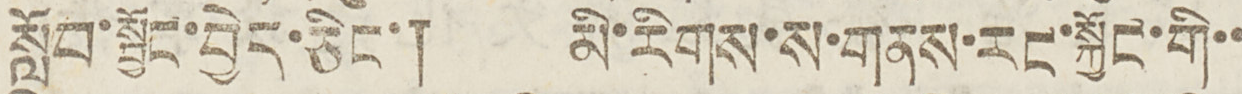སློབ་སྦྱོང་བྱེད་ཅིང་། མི་རིགས་ས་གནས་རང་སྐྱོང་གི་་
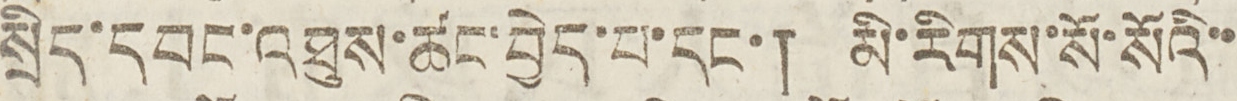སྲིད་དབང་འཐུས་ཚང་བྱེད་པ་དང་། མི་རིགས་སོ་སོའི་་
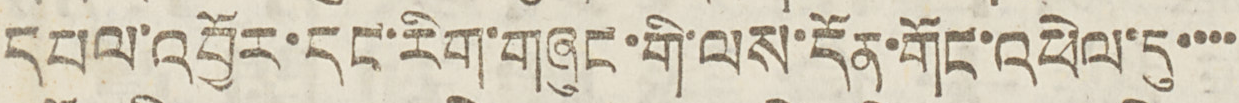དཔལ་བྱོར་དང་རིག་གཞུང་གི་ལས་དོན་གོང་འཕེལ་དུ་་་་
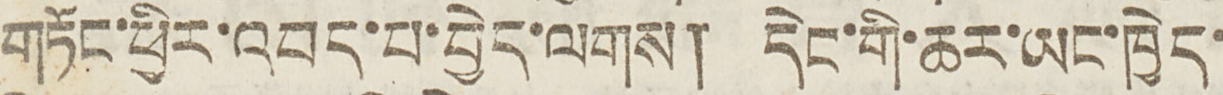གཏོང་ཕྱིར་འབད་པ་བྱེད་ལགས། དེང་གི་ཆར་ཡང་ཁྱེད་
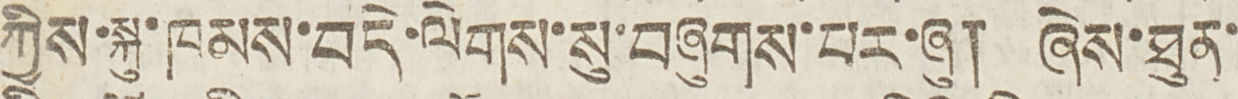ཀྱིས་སྐུ་ཁམས་བདེ་ལེགས་སུ་བཞུགས་པར་ཞུ། ཞེས་ཐུན་
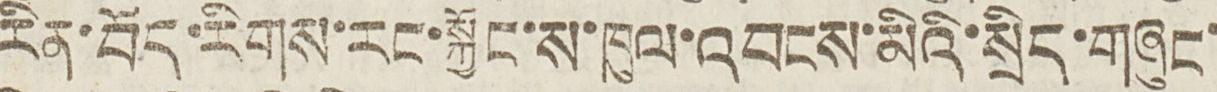རིན་བོད་རིགས་རང་སྐྱོང་ས་ཁུལ་འབངས་མིའི་སྲིད་གཞུང་
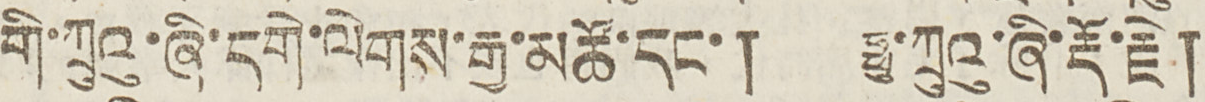གི་ཀྲུའུ་ཞི་དགེ་ལེགས་རྒྱ་མཚོ་དང་། ཧྥུ་ཀྲུའུ་ཞི་རྡོ་རྗེ།
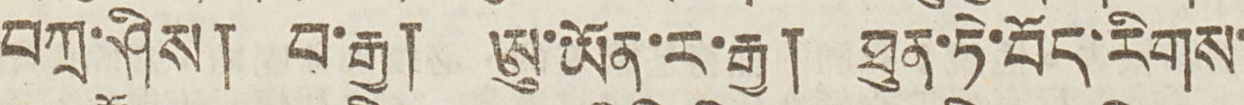བཀྲ་ཤིས། བ་རྒྱ། ཨུ་ཡོན་ར་རྒྱ། ཐུན་ཏེ་བོད་རིགས་
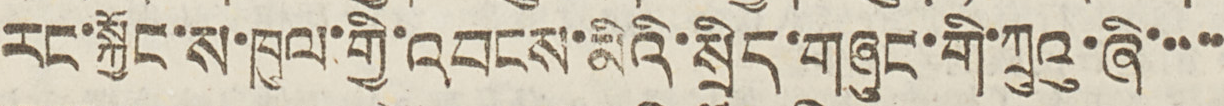རང་སྐྱོང་ས་ཁུལ་གྱི་འབངས་མིའི་སྲིད་གཞུང་གི་ཀྲུའུ་ཞི་་་་་
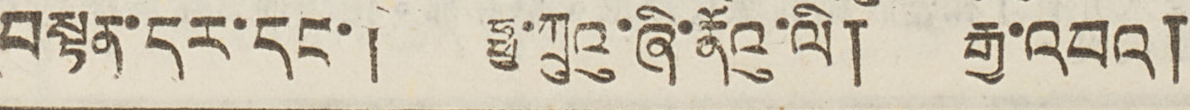བསྟན་དར་དང་། ཧྥུ་ཀྲུའུ་ཞི་ནོའུ་ལི། རྒྱ་འབའ།
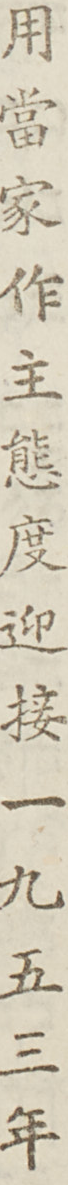用當家作主態度迎接一九五三年
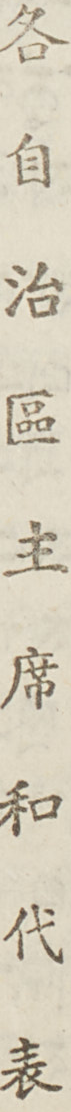各自治區主席和代表
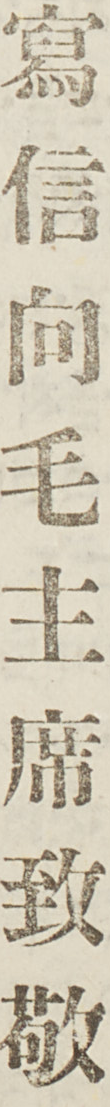寫信向毛主席致敬
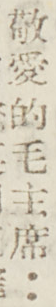敬愛的毛主席：
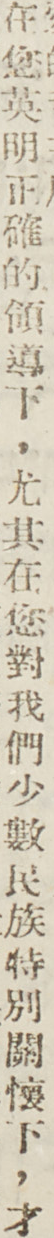在您英明正確度領導下，尤其在您對我們少數民族特別關懷下，才
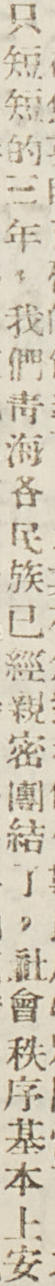只短短的一年，我們青海各民族已經親密團結了，社會秩序基本上安
